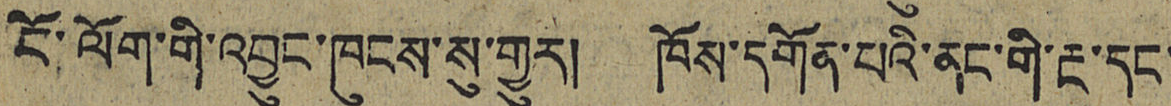ངོ་ལོག་གི་འབྱུང་ཁུངས་སུ་གྱུར། ཁོས་དགོན་པའི་ནང་གི་རྔ་དང་
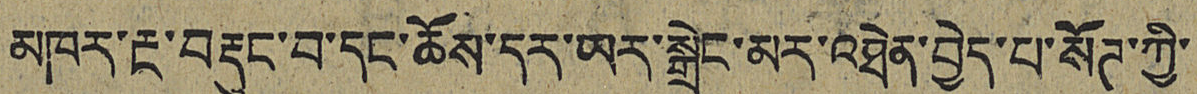མཁར་རྔ་བརྡུང་བ་དང་ཆོས་དར་ཡར་སྒྲེང་མར་འཐེན་བྱེད་པ་སོཊ་ཀྱི་
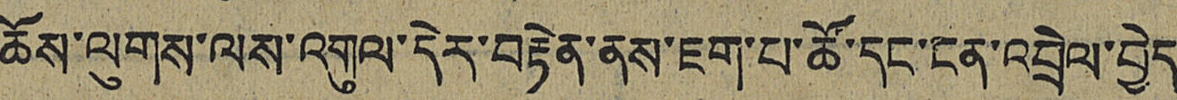ཆོས་ལུགས་ལས་འགུལ་དེར་བརྟེན་ནས་ཇག་པ་ཚོ་དང་ངན་འབྲེལ་བྱེད
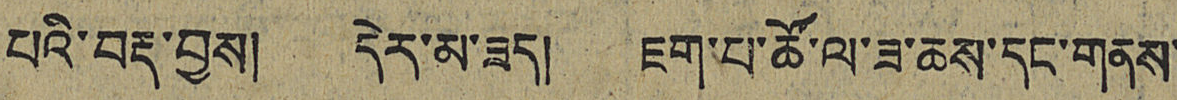པའི་བརྡ་བྱས། དེར་མ་ཟད། ཇག་པ་ཚོ་ལ་ཇ་ཆས་དང་གནས་
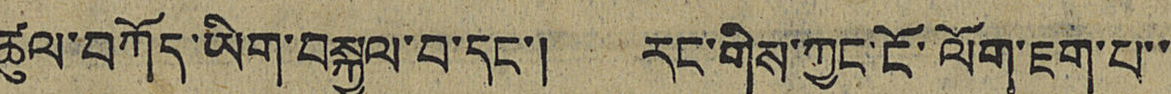ཚུལ་བཀོད་ཡིག་བསྐྱལ་བ་དང་། རང་གིས་ཀྱང་ངོ་ལོག་ཇག་པ་་
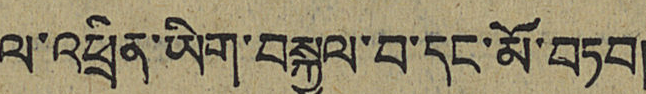ལ་འཕྲིན་ཡིག་བསྐྱལ་བ་དང་མོ་བཏབ།
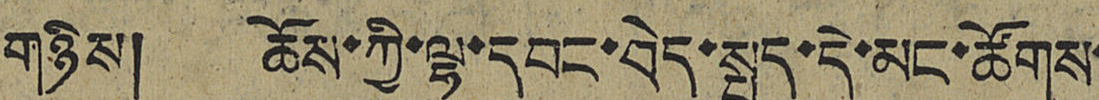གཉིས། ཆོས་ཀྱི་ལྷ་དབང་བེད་སྤྱད་དེ་མང་ཚོགས་
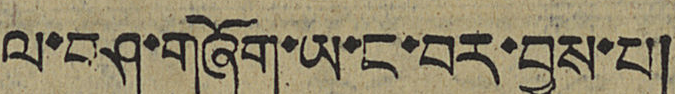ལ་བཤུ་གཞོག་ཡ་ང་བར་བྱས་པ།
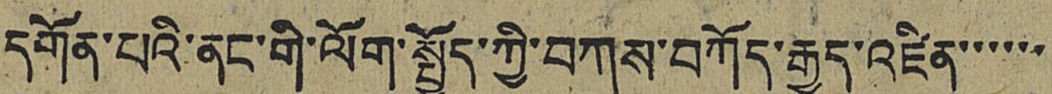དགོན་པའི་ནང་གི་ལོག་སྤྱོད་ཀྱི་བཀས་བཀོད་རྒྱུད་འཛིན་་་་་་
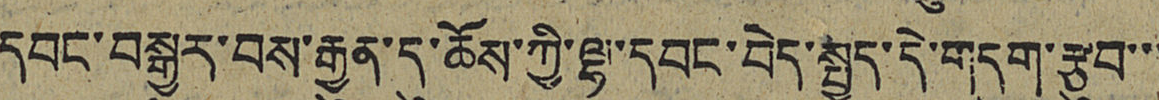དབང་བསྒྱུར་བས་རྒྱུན་དུ་ཆོས་ཀྱི་ལྷ་དབང་བེད་སྤྱད་དེ་གདུག་རྩུབ་་་
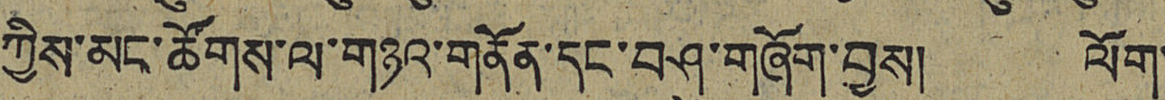ཀྱིས་མང་ཚོགས་ལ་གཉའ་གནོན་དང་བཤུ་གཞོག་བྱས། ལོག་
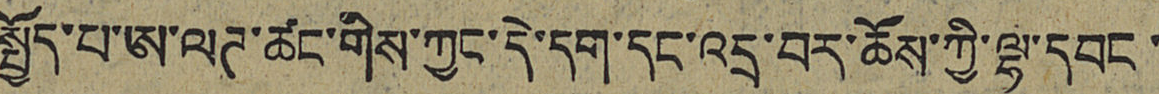སྤྱོད་པ་ཨ་ལཊ་ཚང་གིས་ཀྱང་དེ་དག་དང་འདྲ་བར་ཆོས་ཀྱི་ལྷ་དབང་
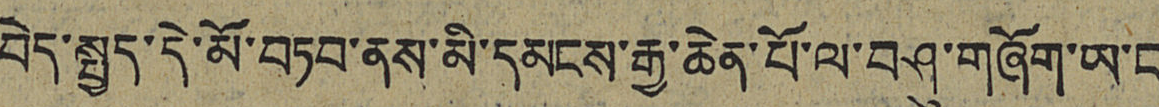བེད་སྤྱད་དེ་མོ་བཏབ་ནས་མི་དམངས་རྒྱ་ཆེན་པོ་ལ་བཤུ་གཞོག་ཡ་ང
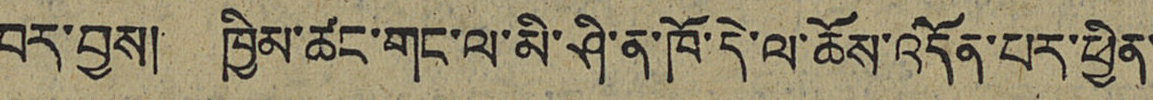བར་བྱས། ཁྱིམ་ཚང་གང་ལ་མི་ཤི་ན་ཁོ་དེ་ལ་ཆོས་འདོན་པར་ཕྱིན་
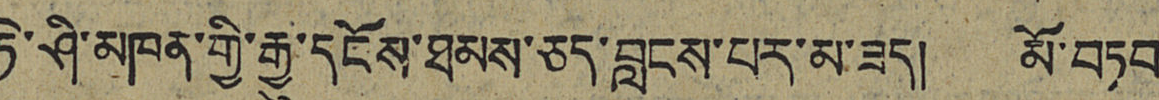ཏེ་ཤི་མཁན་གྱི་རྒྱུ་དངོས་ཐམས་ཅད་བླངས་པར་མ་ཟད། མོ་བཏབ
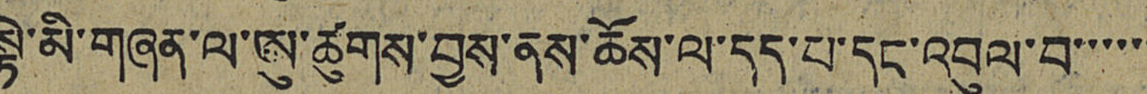སྟེ་མི་གཞན་ལ་ཨུ་ཚུགས་བྱས་ནས་ཆོས་ལ་དད་པ་དང་འབུལ་བ་་་་་་
